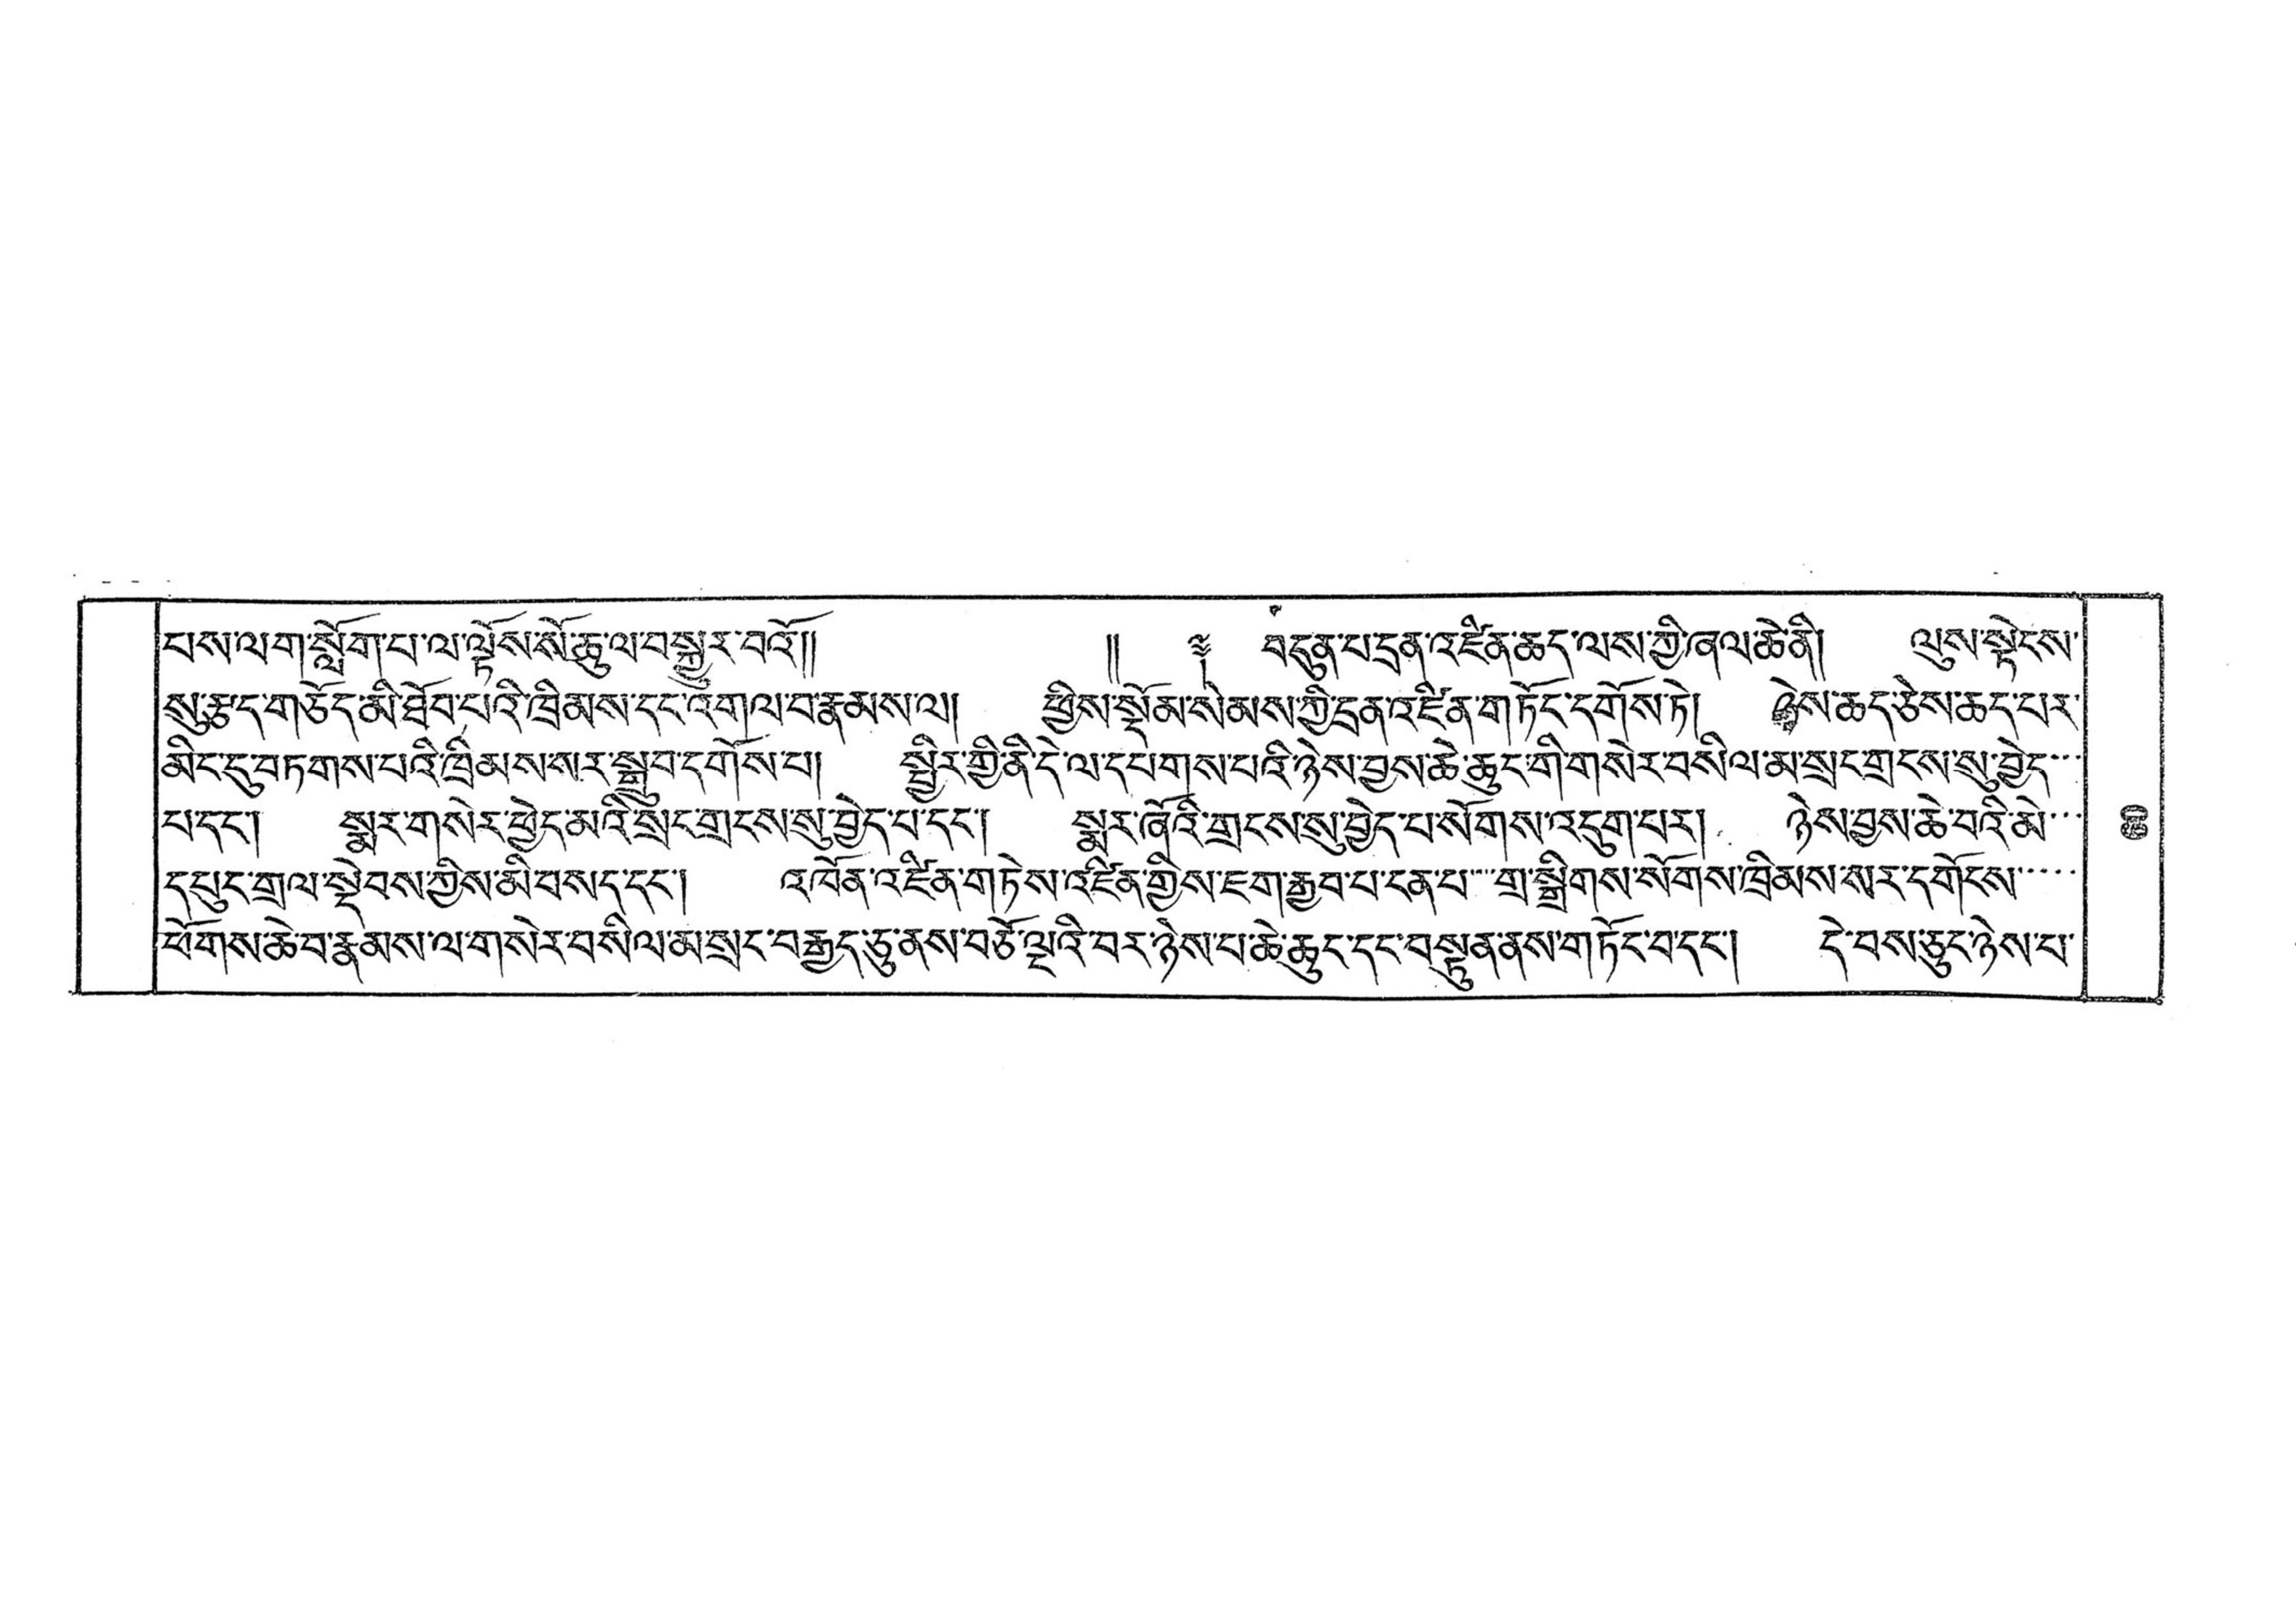པས་ལག་སློག་པ་ལ་ལྟོས་སོ་ཆུ་ལ་བསྐྱུར་བའོ།།  །། ༈ བདུན་པ་དྲན་འཛིན་ཆད་ལས་གྱི་ཞལ་ཆེ་ནི། ལུས་སྟེངས་
སུ་རྩད་གཅོད་མི་ཐོབ་པའི་ཁྲིམས་དང་འགལ་བ་རྣམས་ལ། ཕྱིས་སྡོམ་སེམས་ཀྱི་དྲན་འཛིན་གཏོང་དགོས་ཏེ། ཉེས་ཆད་ཅེས་ཆད་པར་
མིང་དུ་བཏགས་པའི་ཁྲིམས་སར་སྒྲུབ་དགོས་པ། སྤྱིར་གྱི་ནི་དེ་ལ་དཔགས་པའི་ཉེས་བྱས་ཆེ་ཆུང་གི་གསེར་བསིལ་མ་སྲང་གྲངས་སུ་བྱེད་་་
པ་དང་། སྨར་གསེར་ཕྱེད་མའི་སྲང་གྲངས་སུ་བྱེད་པ་དང་། སྨར་ཞོའི་གྲངས་སུ་བྱེད་པ་སོགས་འདུག་པར། ཉེས་བྱས་ཆེ་བའི་མེ་་་
དཔུང་གྲལ་སྡེབས་ཀྱིས་མི་བསད་དང་། འཁོན་འཛིན་གཏེས་འཛིན་གྱིས་ཇག་རྒྱབ་པ་ངན་པ་་་་གྲ་སྒྲིགས་སོགས་ཁྲིམས་སར་དགོངས་་་་
ཕོགས་ཆེ་བ་རྣམས་ལ་གསེར་བསིལ་མ་སྲང་བརྒྱད་ཅུ་ནས་བཅོ་ལྔའི་བར་ཉེས་པ་ཆེ་ཆུང་དང་བསྟུན་ནས་གཏོང་བ་དང་། དེ་བས་ཅུང་ཉེས་པ་
